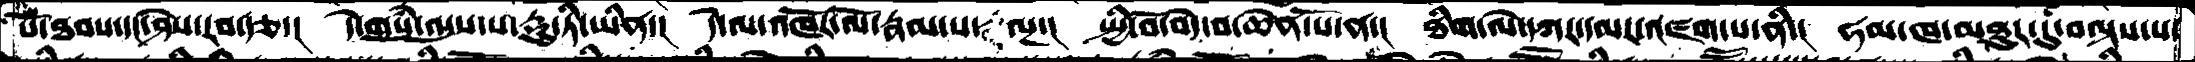པོ་ཐབས་དང་ཤེས་རབ་རྩ་།  དེ་གསུཾ་འདུས་པ་དྷུ་ཏི་ཡིན་།  དེ་ལ་འཁོར་ལོ་རྣམ་པ་ལྔ་།  སྤྱི་བོ་བདེ་བ་ཆེན་པོ་ན་།  ཐིག་ལེ་དཀར་དམར་འཛག་པ་ནི་།  ཧམ་ཁ་མཐུར་དུ་བལྟས་པ་
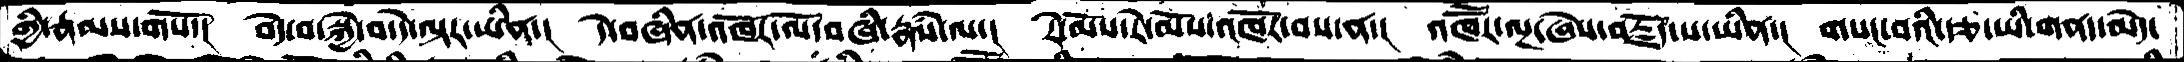གྱི་རྣམས་གསོ་།  བདེ་བ་སྐྱེ་བ་དེ་ལྟར་ཡིན་།  དེ་བཞིན་འཁོར་ལོ་བཞིན་རྣཾས་ལ་།  རེ་མོས་རེ་མོས་འཁོར་བས་ན་།  འཁཽར་ལྔ་ཞེས་བརྗོད་པ་ཡིན་།  གསང་བའི་རྩ་ཡི་གནད་མེད་
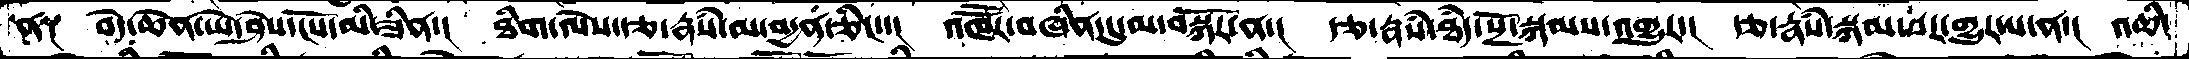ན༑  བདེ་ཆེན་ཡེ་ཤེས་ངོས་མི་ཟིན་།  ཐིག་ལེས་རྩ་རྣཾས་མ་བདྱན་ཅིང་་།  འཁཽར་བཞིན་དུ་མ་བསྐོར་ན་།  རྩ་རྣཾས་ཐཾད་སྔོ་སྐམས་འགྱུར་།  རྩ་རྣཾས་སྐམ་བར་གྱུར་པ་ན་།  འཆི་
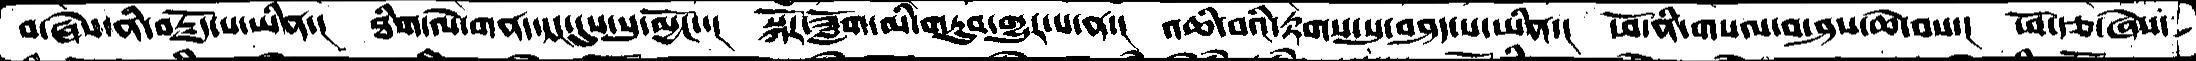བ་ཞེས་ནི་བརྗོད་པ་ཡིན་།   ཐིག་ལེ་གནད་དང་དུས་སུ་མྱོང་།  སྐོར་ཟློག་མི་གཏུབ་གྱུར་པ་ན་།  འཆི་བའི་རྟགས་སུ་བཤད་པ་ཡིན་།  ཕོ་ནི་གསལ་བ་ཤས་ཆེ་བས་།  ཕོ་རྩ་ཞེས་
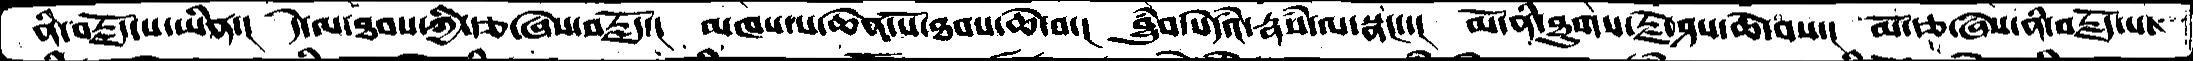ནི་བརྗོད་པ་ཡིན་།  དེ་ལ་ཐབས་གྱི་རྩ་ཞེས་བརྗོད་།  མཁས་པ་ཆེན་པོ་ཐབས་ཆེ་བ་།  བྱུཾབ་སེདཾའ་རྣཾས་ལ་སྣང་་།  མོ་ནི་ཐུགས་རྗེ་ཤས་ཆེ་བས་།  མོ་རྩ་ཞེས་ནི་བརྗོད་པ་
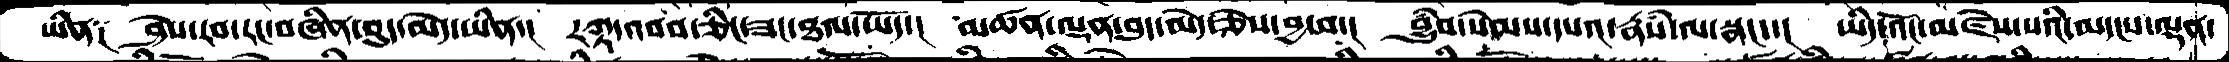ཡིན་༑   ཤེས་རབ་རང་བཞིན་བུད་མེད་ཡིན་།  རཀྟ་འབབ་ཅིང་ཟང་ཐལ་ཡོད་།  མཚན་ལྡན་བུད་མེད་ཅེས་བྱ་བ་།  བྱུཾབ་སེམས་དཔའ་རྣཾས་ལ་སྣང་་།   ཡིད་འོང་མཛེས་པའི་མདངས་ལྡན་
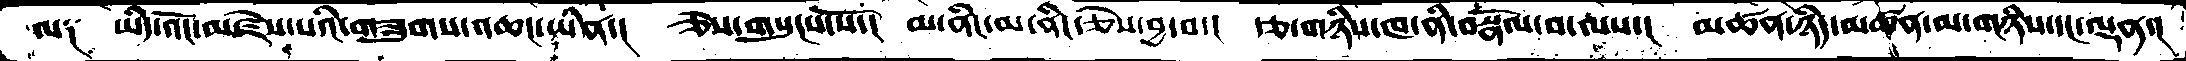ལ༑  ཡིད་འོང་མཛེས་པའི་གཟུགས་འཆང་ཡིན་།  ཅེས་གསུངས་སོ་།  མ་ནིང་མ་ནིང་ཅེས་བྱ་བ་།  རྩ་གཉིས་ཁ་ནི་བསྣལ་བ་ལས་།  མཚན་ཉིད་མཚན་མ་གཉིས་དང་ལྡན་།
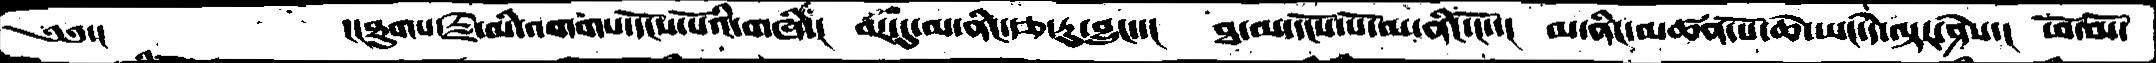༄༅་།        ་།ཐུགས་རྗེ་མི་འགགས་དངོས་པོའི་གཞི་།  བར་དུ་མ་ནིང་རྩ་རུ་བྱུང་་།  ཐ་མ་དངོས་པོ་མ་ནིང་ངོ་་།  མ་ནིང་མཚན་པོ་ཆེ་ཡང་དེ་ལྟར་ཤེས་།  ཕོ་མོ་
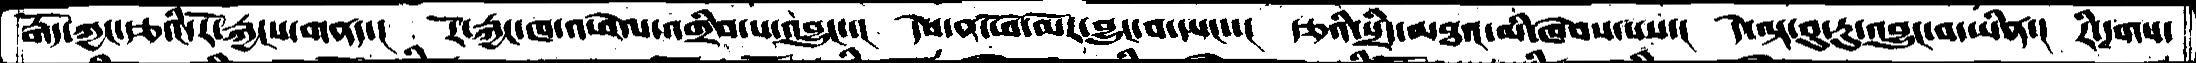རྒོད་ཀྱང་རྩའི་རོ་རྐྱངས་གནད་།  རོ་རྐྱང་ཁ་འཕེལ་འགྲིབ་པ་འབྱུང་་།  དེས་ན་ཕོ་མོར་བྱུང་བ་ཡང་་།  རྩའི་སྲིད་མཐའ་མི་ཁེབས་པས་།  དེ་ལྟར་བུ་རུ་འབྱུང་བ་ཡིན་།  རི་དྭགས་
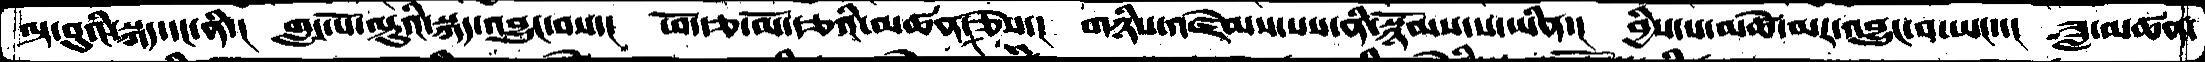ལྟ་བུའི་སྐད་དང་ནི་།  གླང་པོ་ལྟུའི་སྐད་འབྱུང་བས་།  ཕོ་རྩ་མོ་རྩའི་མཚན་ཅེས་།  གཉིས་འཛེམས་པས་ནི་སྙོམས་པ་ཡིན་།  བྱིས་པ་མཚེ་མར་འབྱུང་བ་ཡང་་།  ཟླ་མཚན་
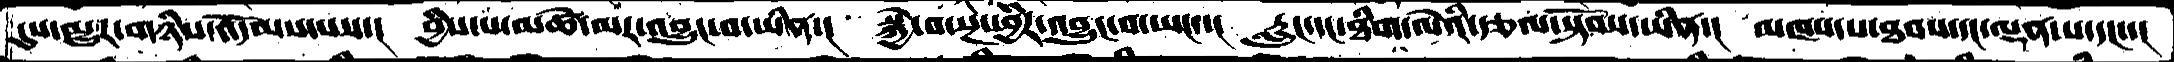དུས་མྱུར་གཉིས་འདོམས་པས་།  བྱིས་པ་མཚེ་མར་འབྱུང་བ་ཡིན་།  སྐྱེ་བ་སྔ་ཕྱིར་འབྱུང་བ་ཡང་་།  རླུང་དང་ཐིག་ལེའི་རྩལ་སྟོབས་ཡིན་།  མཁས་པ་ཐབས་དང་ལྡན་པ་དང་་།
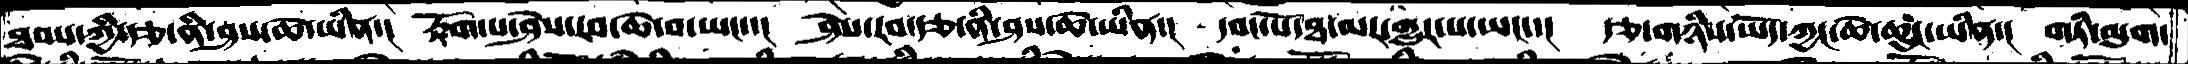ཐབས་ཀྱི་རྩ་ནི་ཤས་ཆེ་ཡིན་།  རྟོག་པ་ཤེས་རབ་ཆེ་བ་ཡང་་།  ཤེས་རབ་རྩ་ནི་ཤས་ཆེ་ཡིན་།  དབང་པོ་ཐ་མར་གྱུར་པ་ཡང་་།  རྩ་གཉིས་ཡོད་ཀྱང་ཆེ་ཆུང་ཡིན་།  གཏི་མུག་
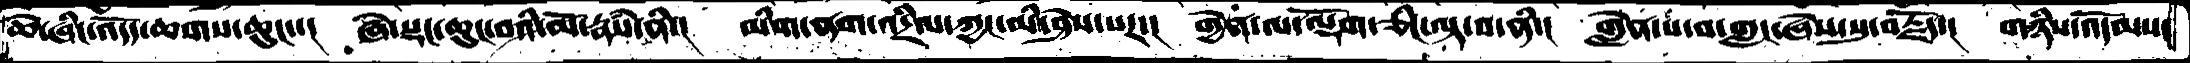ཆེ་ཞིང་འདོད་ཆགས་ཆུང་་།  ཞེ་སྡང་ཆུང་བའི་མོ་རྣཾས་ནི་།  མིག་ནག་འདྲིལ་ཀྱང་མི་ཤེས་པར་།  གྱེན་ལ་ལྡོག་ཅིང་ལྟ་བ་ནི་།  གླེན་པ་བ་གླང་ཞེས་སུ་བརྗོད་།  གཉིས་འདོམས་
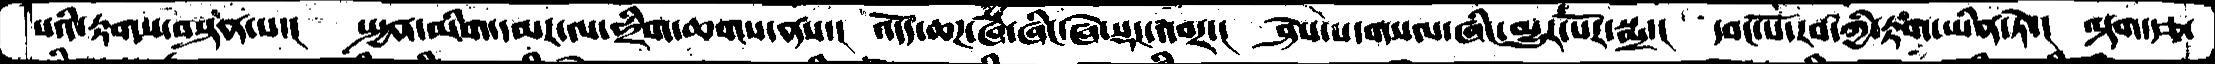པའི་རྟགས་བསྟན་པ་།  སྤྱན་མིག་དམར་ལ་ཧྲིག་ཆགས་ནས་།  འདོད་ཆཌ་ཞེ་ཞིང་ཞེ་སྡང་འབར་།  ཤེས་པ་གསལ་ཞིང་མྱུར་པོར་སྨྲ་།  དབང་པོ་རབ་ཀྱི་རྟག་ཡིན་ཏེ་།  ལྟག་རྩ་
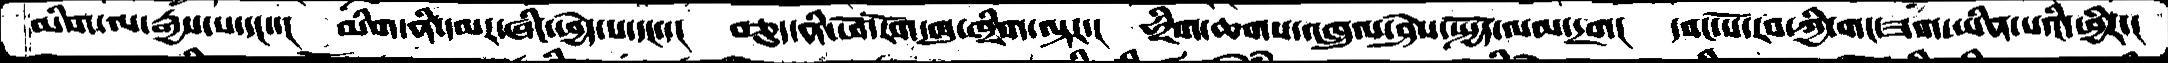མིག་ལ་རྒྱས་པ་དང་་།  མིག་ནི་དམར་ཞིང་ཕྱེད་པ་དང་་།  བཅུད་ནི་ཕོ་རོག་ཁུ་ཁྲིག་ལྟར་།  ཧྲིག་ཆགས་འཁྲུལ་ཤེས་སྤྱོད་ལམ་དྲག།  དབང་པོ་རབ་ཀྱི་གང་ཟག་ཡིན་པའི་ཕྱིར་།
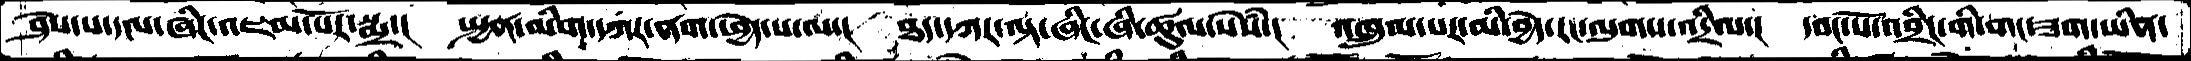ཤེས་པ་དལ་ཞིང་འཇམ་པོར་སྨྲ་།  སྤྱན་མིག་དཀར་ནག་ཕྱེད་པ་ལ་།  ཐད་དཀར་ལྟ་ཞིང་ཞི་ཚུལ་སེཾས་།  འཁྲུལ་པར་མི་བྱེད་རང་ལུགས་འདྲིལ་།  དབང་པོ་འབྲིང་གི་གང་ཟག་ཡིན་
